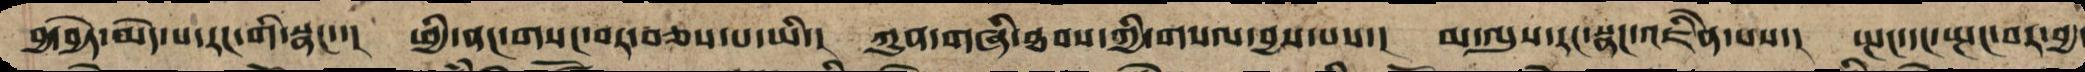བྱ་བྱེད་མེད་པར་རང་གིས་སྣང་་། ཕྱི་ནང་གསང་བར་བཅས་པ་ཡི་། ཀུན་གཞི་ཐབས་ཀྱིས་གསལ་བྱས་པས་། མ་ལུས་རང་སྣང་འཇིག་རྟེན་པས་། སྤང་དང་སྤང་བར་བྱ་
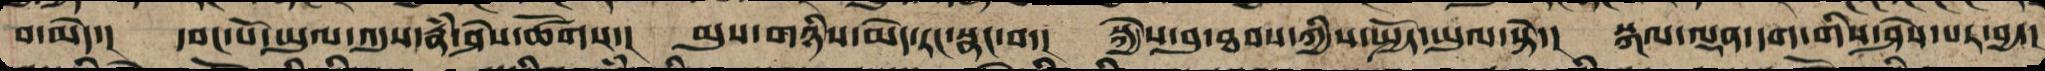བ་མེད་། དབང་པོ་ཡུལ་དུས་རྣཾ་ཤེས་ཚོགས་། མུས་གཉིས་མེད་རང་སྣང་བ་། སྐྱེས་བུ་ཐབས་ཀྱི་སྤྱོད་ཡུལ་སྟེ་། སྐལ་ལྡན་དག་གིས་ཤེས་པར་བྱ་།
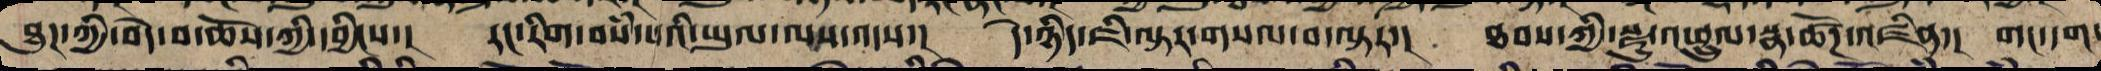ཐུཌ་ཀྱི་བདེ་བ་ཆོས་ཀྱི་དབྱིངས་། རང་རིག་བསཾ་པའི་ཡུལ་ལས་འདས་། དེ་ཉིད་ཇི་ལྟར་གསལ་བ་ལྟར་། ཐབས་ཀྱི་སྫུ་འཕྲུལ་སྣ་ཚོཌ་འཛིན་། གང་དག་
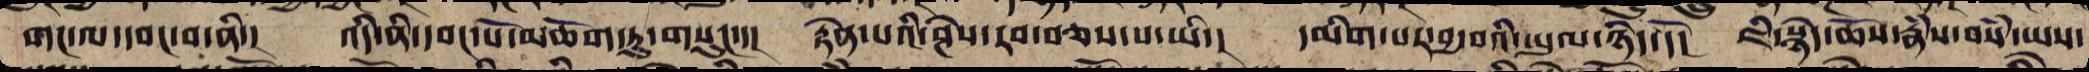གང་ལ་དབང་བ་ནི་། འདི་ནི་དབང་པོ་མཆོག་ཏུ་གསུངས་། རྟེན་པའི་ཤེས་རབ་བཅས་པ་ཡི་། དམིག་པར་བྱ་བའི་ཡུལ་ཉིད་དོ་། ཇི་སྙེད་ཆོས་རྣཾས་བསཾ་ཡས་
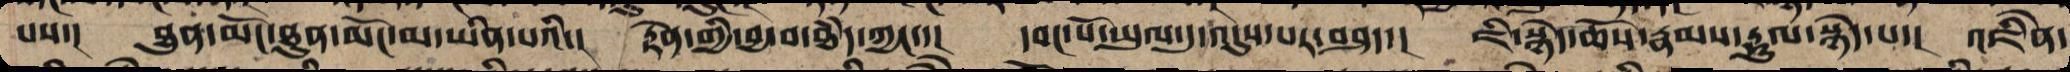པས་། ཐུན་མོང་ཐུན་མོང་མ་ཡིན་པའི་། རྟེན་གྱི་བྱ་བ་ཐཾད་ཀྱང་་། དབང་པོ་ཡུལ་དུ་འདུས་པར་བཤད་། ཇི་སྙེད་ཆོས་རྣམས་རྡུལ་སྙེད་པ་། འཇིེན་
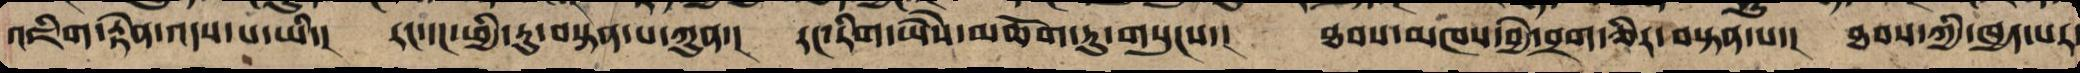འཇིག་རྟེན་འདས་པ་ཡི་། ནང་དང་ཕྱི་རུ་བསྟན་པ་ཀུན་། རང་རིག་ཡཻས་མཆོག་ཏུ་གསུངས་། ཐབས་མཁས་བྱེ་བྲག་ཅིར་བསྟན་པ་། ཐབས་ཀྱི་ཁྱད་པར་
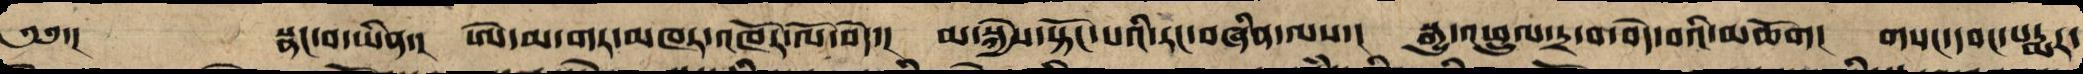༄༅་། སྣང་བ་ཡིན་། ཨེ་མ་གར་མཁན་འཁོར་ལོ་བདེ་། མ་སྐྱེས་སྟོང་བའི་རང་བཞིན་ལས་། སྒྱུ་འཕྲུལ་དྲ་བ་བདེ་བའི་མཆོག། གསང་དབང་པདྨར་
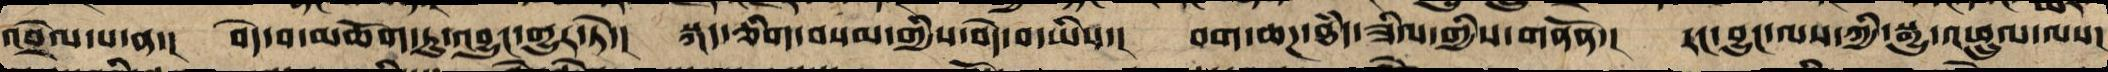འབྲེལ་པ་ན་། བདེ་བ་མཆོག་ཏུ་འབྱུང་འགྱུར་ཏེ་། སྐད་ཅིག་བསམ་གྱིས་བདེ་བ་ཡིས་། བག་ཆཌ་ཐཾད་ཟིལ་གྱིས་གནོན་། རང་བྱུང་ལས་ཀྱི་སྒྱུ་འཕྲུལ་ལས་
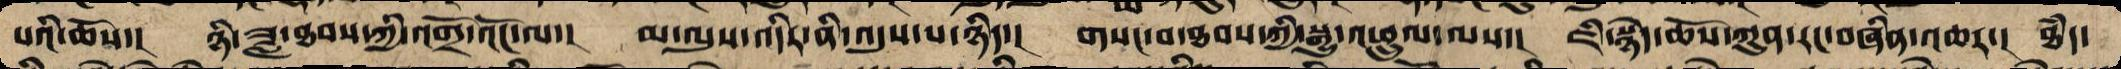པའི་ཆོས་། ཉི་ཟླ་ཐབས་ཀྱི་འགྲོ་འོང་ལ་། མ་ལུས་འདིར་ནི་འདུས་པ་ཉིད་། གསང་བ་ཐབས་ཀྱིས་སྒྱུ་འཕྲུལ་ལས་། ཇི་སྙེད་ཆོས་ཀུན་རང་བཞིན་འཆར་། ཐཾད་
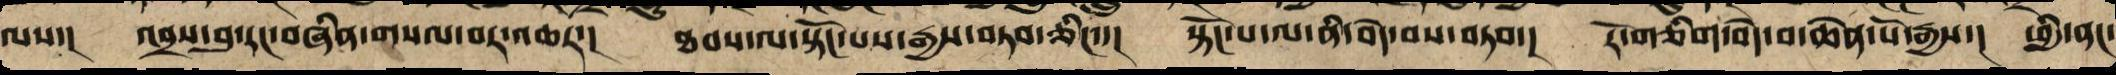ལས་། འབྲས་བུ་རང་བཞིན་གསལ་བར་འཆར་། ཐབས་ལ་སྟོང་པས་རྒྱས་བཏབ་ཅིང་་། སྟོང་པ་ལ་ནི་བདེ་བས་བཏབ་། རོ་གཅིག་བདེ་བ་ཆེན་པོ་རྒྱས་། ཕྱི་ནང་
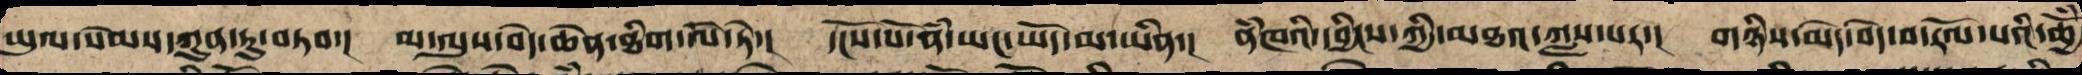ཡུལ་སེམས་ཀུན་ཏུ་བཏབ་། མ་ལུས་བདེ་ཆེན་ཐིག་ལེ་ཏེ་། དངོས་པོ་ནཾ་ཡང་ཡོད་མ་ཡིན་། ནཾཁའི་དབྱིངས་ཀྱི་མཐའ་ཀླས་པར་། །གཉིས་མེད་བདེ་བ་རོལ་པའི་ཆྱོཾ
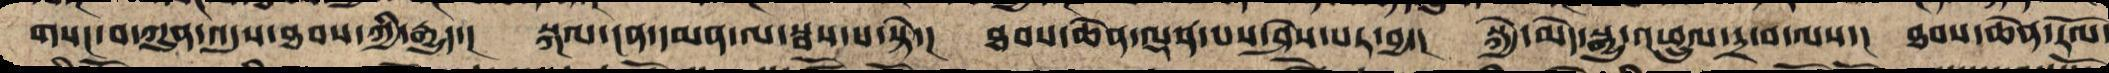གསང་བ་ཀུན་འདུས་ཐབས་ཀྱི་རྒྱུད་། སྐལ་ངན་དམན་ལ་སྦས་པ་སྟེ་། ཐབས་ཆེན་ལྡན་པས་ཤེས་པར་བྱ་། སྐྱེ་མེད་སྒྱུ་འཕྲུལ་དྲ་བ་ལས་། ཐབས་ཆེན་རོལ་
